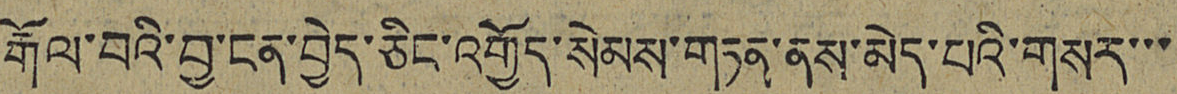རྒོལ་བའི་བྱ་ངན་བྱེད་ཅིང་འགྱོད་སེམས་གཏན་ནས་མེད་པའི་གསར་་་
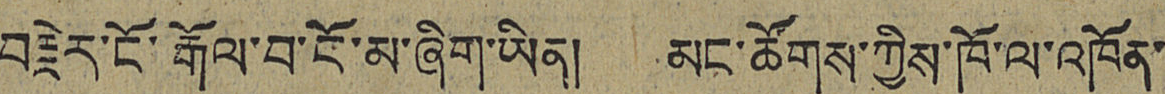བརྗེར་ངོ་རྒོལ་བ་ངོ་མ་ཞིག་ཡིན། མང་ཚོགས་ཀྱི་ཁོ་ལ་འཁོན་
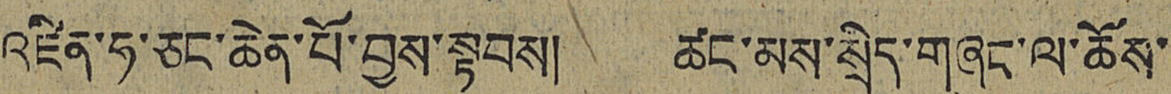འཛིན་ཧ་ཅང་ཆེན་པོ་བྱས་སྟབས། ཚང་མས་སྲིད་གཞུང་ལ་ཆོས་
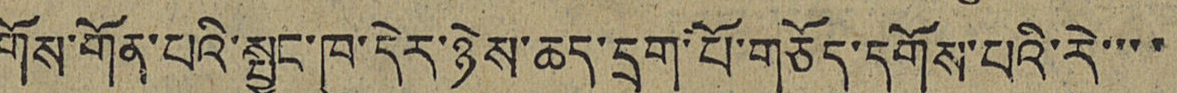གོས་གོན་པའི་སྤྱང་ཁུ་དེར་ཉེས་ཆད་དྲག་པོ་གཅོད་དགོས་པའི་རེ་་་་
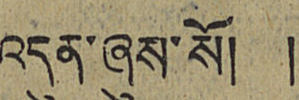འདུན་ཞུས་སོ། །
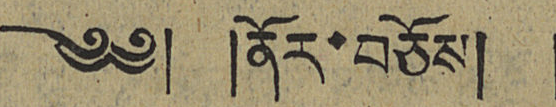༄༅། །ནོར་བཅོས། །
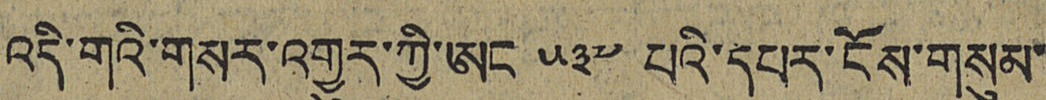འདི་གའི་གསར་འགྱུར་ཀྱི་ཨང ༥༣༧ པའི་དཔར་ངོས་གསུམ་
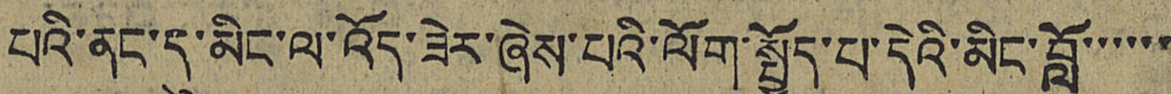པའི་ནང་དུ་མིང་ལ་འོད་ཟེར་ཞེས་པའི་ལོག་སྤྱོད་པ་དེའི་མིང་བློ་་་་་་
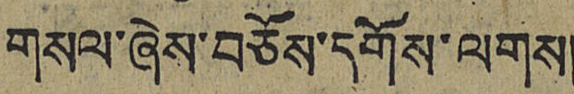གསལ་ཞེས་བཅོས་དགོས་ལགས།
